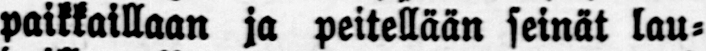paikkaillaan ja peitellään seinät lau-
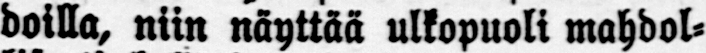doilla, niin näyttää ulkopuoli mahdol-
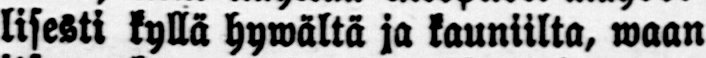lisesti kyllä hywältä ja kauniilta, waan
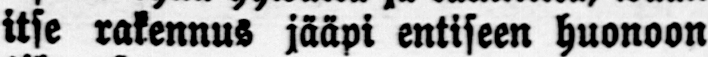itse rakennus jääpi entiseen huonoon
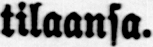tilaansa.
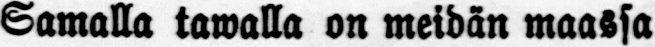Samalla tawalla on meidän maassa
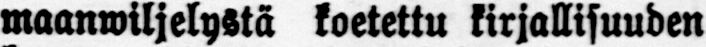maanwiljelystä koetettu kirjallisuuden
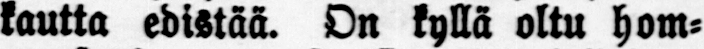kautta edistää. On kyllä oltu hom-
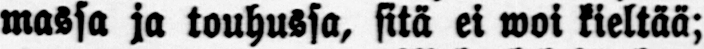massa ja touhussa, sitä ei woi kieltää;
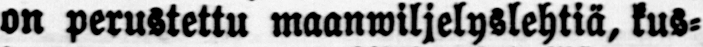on perustettu maanwiljelyslehtiä, kus-
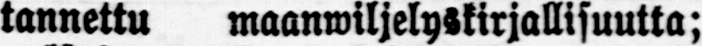tannettu maanwiljelyskirjallisuutta;
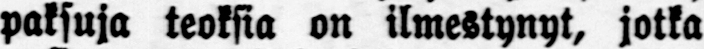paksuja teoksia on ilmestynyt, jotka
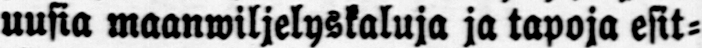uusia maanwiljelyskaluja ja tapoja esit-
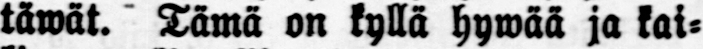täwät. Tämä on kyllä hywää ja kai-
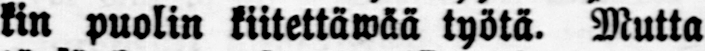kin puolin kiitettäwää työtä. Mutta
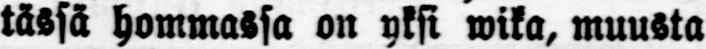tässä hommassa on yksi wika, muusta
